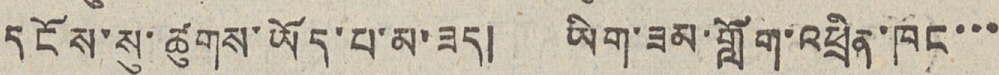དངོས་སུ་ཚུགས་ཡོད་པ་མ་ཟད། ཡིག་ཟམ་གློག་འཕྲིན་ཁང་་་
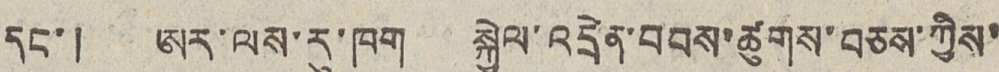དང་། ཨར་ལས་རུ་ཁག སྐྱེལ་འདྲེན་བབས་ཚུགས་བཅས་ཀྱིས་
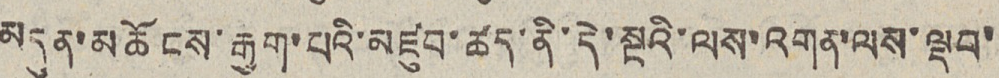མདུན་མཆོངས་རྒྱག་པའི་མཛུབ་ཚད་ནི་དེ་སྔའི་ལས་འགན་ལས་ལྡབ་
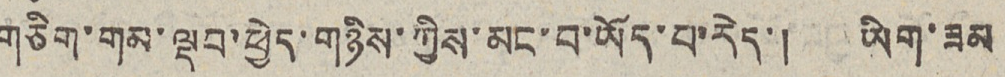གཅིག་གམ་ལྡབ་ཕྱེད་གཉིས་ཀྱིས་མང་བ་ཡོད་པ་རེད་། ཡིག་ཟམ
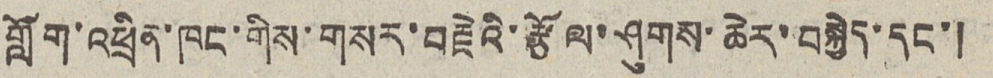གློག་འཕྲིན་ཁང་གིས་གསར་བརྗེའི་རྩོལ་ཤུགས་ཆེར་བསྐྱེད་དང་།
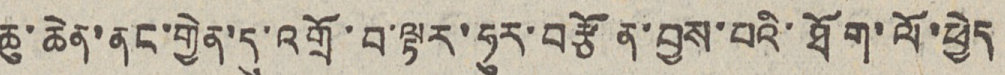ཆུ་ཆེན་ནང་གྱེན་དུ་འགྲོ་བ་ལྟར་ཧུར་བརྩོན་བྱས་པའི་ཐོག་ལོ་ཕྱེད
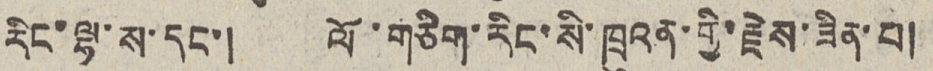རིང་ལྷ་ས་དང་། ལོ་གཅིག་རིང་སི་ཁྲུའན་གྱི་རྗེས་ཟིན་པ།
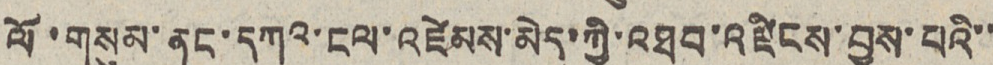ལོ་གསུམ་ནག་དཀའ་ངལ་འཛེམས་མེད་ཀྱི་འཐབ་འཛིངས་བྱས་པའི་་
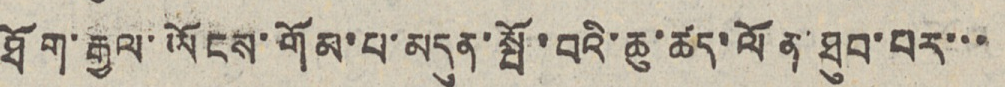ཐོག་རྒྱལ་ཡོངས་གོམ་པ་མདུན་སྤོ་བའི་ཆུ་ཚད་ལོན་ཐུབ་པར་་་
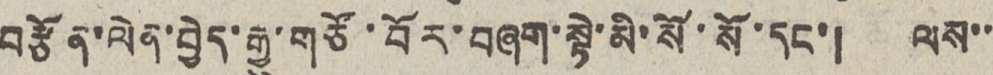བརྩོན་ལེན་བྱེད་རྒྱུ་གཙོ་བོར་བཞག་སྟེ་མི་སོ་སོ་དང་། ལས་་
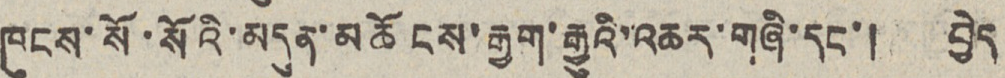ཁུངས་སོ་སོའི་མདུན་བཆོངས་རྒྱག་རྒྱུའི་འཆར་གཞི་དང་། བྱེད
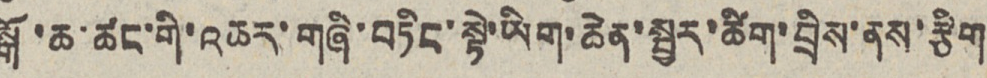སྒོ་ཆ་ཚང་གི་འཆར་གཞི་བཏིང་སྟེ་ཡིག་ཆེན་སྦྱར་ཚིག་བྲིས་ནས་རྩིག
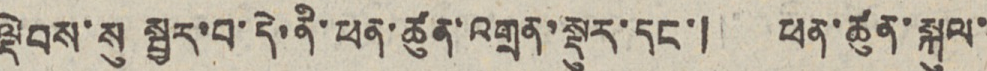ལྡེབས་སུ སྦྱར་བ་དེ་ནི་ཕན་ཚུན་འགྲན་སྡུར་དང་། ཕན་ཚུན་སྐུལ་
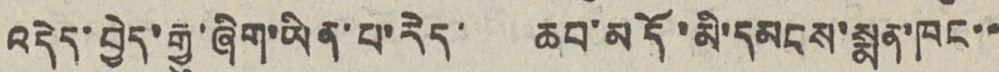འདེད་བྱེད་རྒྱུ་ཞིག་ཡིན་པ་རེད་ ཆབ་མདོ་མི་དམངས་སྨན་ཁང་་
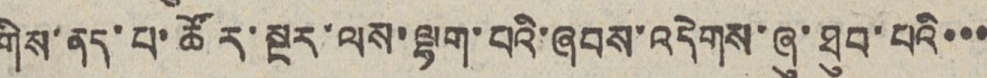གིས་ནད་པ་ཚོར་སྔར་ལས་ལྷག་པའི་ཞབས་འདེགས་ཞུ་ཐུབ་པའི་་་
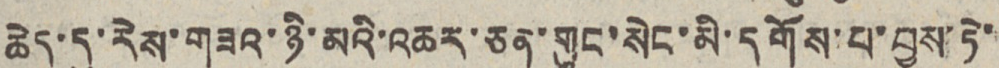ཆེད་དུ་རེས་གཟའ་ཉི་མའི་འཆར་ཅན་གུང་སེང་མི་དགོས་པ་བྱས་ཏེ་
